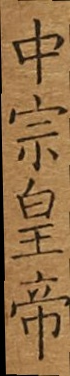中宗皇帝
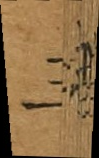三
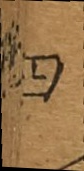四
